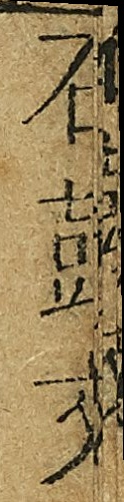石鼓文
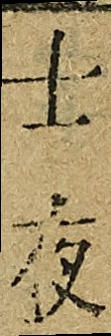士夜
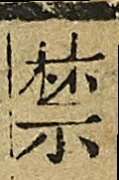禁
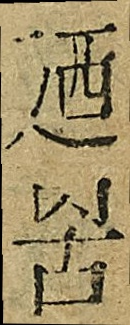迺苦
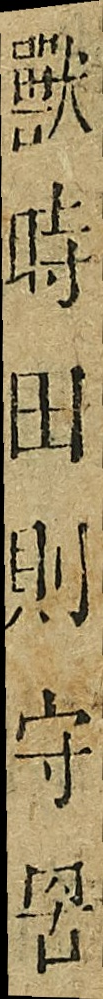獸時田澤守？
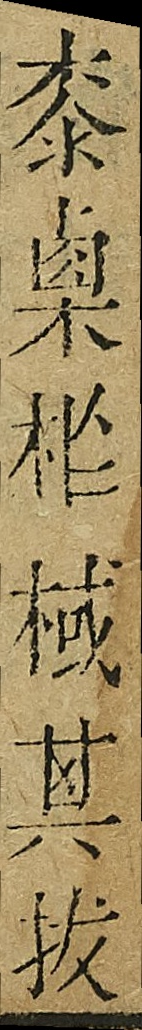桼㮚？棫其拔
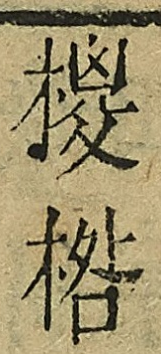？椈？
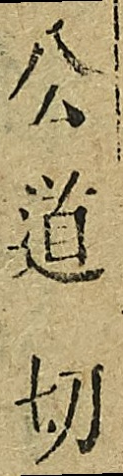公道切
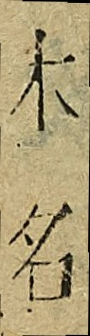木名
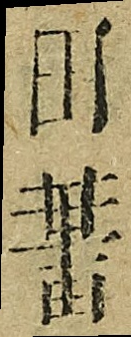田薔
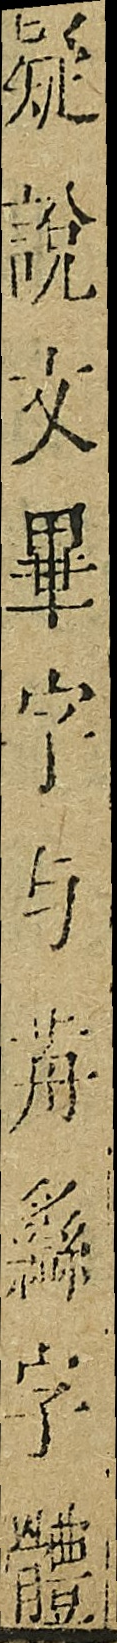疑說文畢字与舟蠡字體
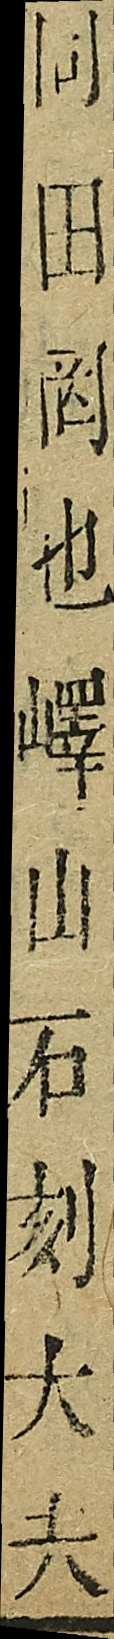同田罔也嶧山石刻大夫
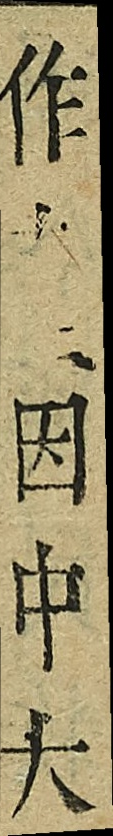作？因中大
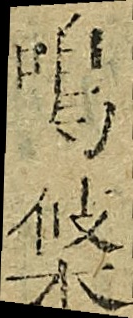鳴條
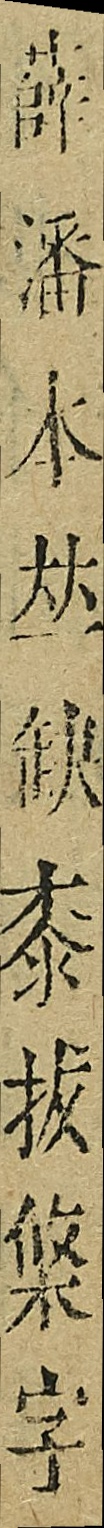薛潘本並缺桼拔條字
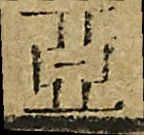亞
